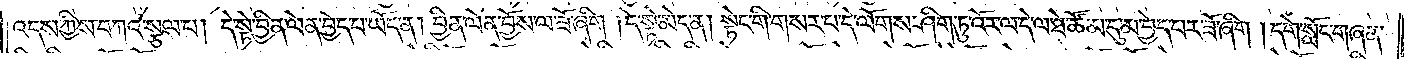འདས་ཀྱིས་བཀའ་སྩལ་པ། དེ་སྟེ་བྱིན་ལེན་བྱེད་པ་ཡོད་ན། བྱིན་ལེན་བྱོས་ལ་ཟོ་ཞིག །དེ་སྟེ་མེད་ན། སྟེང་གི་གསར་པ་དེ་ལོགས་ཤིག་ཏུ་འོར་ལ་དེ་ལ་ཐེ་ཚོམ་དུ་མ་བྱེད་པར་ཟོ་ཞིག། དགེ་སློང་གཞན་
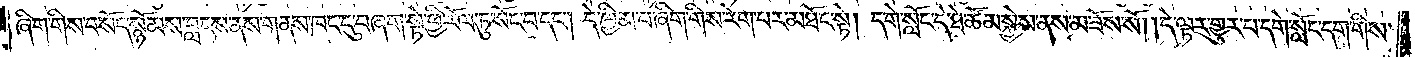ཞིག་གིས་བསོད་སྙོམས་བླངས་ནས་གནས་ཁང་དུ་བཞག་སྟེ་ཕྱི་རོལ་ཏུ་སོང་བ་དང༌། དེ་ཁྱིམ་པ་ཞིག་གིས་རེག་པར་མཐོང་སྟེ། དགེ་སློང་དེ་ཐེ་ཚོམ་སྐྱེས་ནས་མ་ཟོས་སོ། །དེ་ལྟར་གྱུར་པ་དགེ་སློང་དག་གིས་
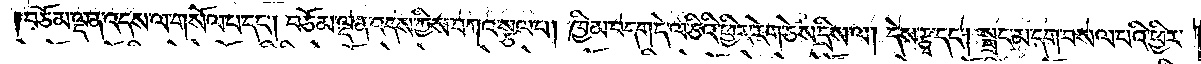བཅོམ་ལྡན་འདས་ལ་གསོལ་པ་དང༌། བཅོམ་ལྡན་འདས་ཀྱིས་བཀའ་སྩལ་པ། ཁྱིམ་བདག་དེ་ལ་ཅིའི་ཕྱིར་རེག་ཅེས་དྲིས་ལ། དེས་རྩྭ་དང༌། སྦྲང་མ་དག་བསལ་པའི་ཕྱིར་
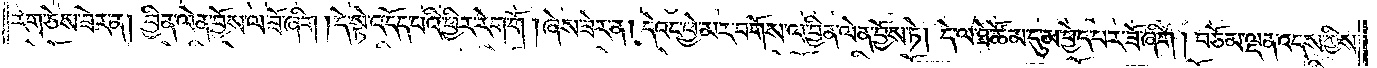རེག་ཅེས་ཟེར་ན། བྱིན་ལེན་བྱོས་ལ་ཟོ་ཞིག །དེ་སྟེ་འདོད་པའི་ཕྱིར་རེག་གོ །ཞེས་ཟེར་ན། དེའང་ཕྱེ་མར་བགོས་ལ་བྱིན་ལེན་བྱོས་ཏེ། དེ་ལ་ཐེ་ཚོམ་དུ་མ་བྱེད་པ་ར་ཟོ་ཞིག །བཅོམ་ལྡན་འདས་ཀྱིས་
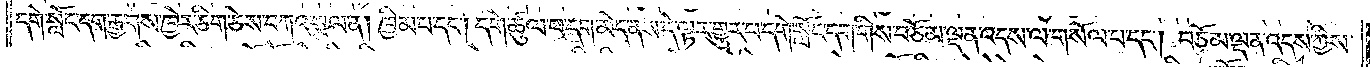དགེ་སློང་དག་རྒྱགས་ཁྱེར་ཅིག་ཅེས་བཀའ་སྩལ་ན། ཁྱིམ་པ་དང༌། དགེ་ཚུལ་ཕ་དག་མེད་ནས་དེ་ལྟར་གྱུར་པ་དགེ་སློང་དག་གིས་བཅོམ་ལྡན་འདས་ལ་གསོལ་པ་དང༌། བཅོམ་ལྡན་འདས་ཀྱིས་
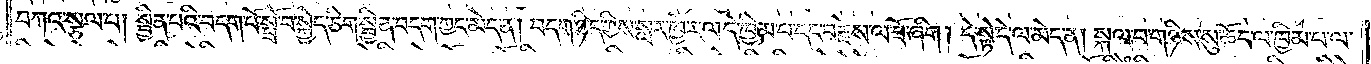བཀའ་སྩལ་པ། སྦྱིན་པའི་བདག་པོ་སྤྲོ་བ་སྐྱེད་ཅིག་སྦྱིན་བདག་ཀྱང་མེད་ན། བདག་ཉིད་ཀྱིས་སླར་ཁྱེར་ལ་དེ་ཁྱིམ་པ་དང་བརྗེས་ལ་ཟོ་ཞིག །དེ་སྟེ་དེ་ལ་མེད་ན། སྐལ་པ་གཉིས་སུ་ཆོད་ལ་ཁྱིམ་པ་ལ་
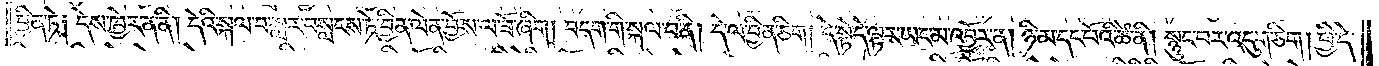བྱིན་ཏེ༑ དེས་ཁྱེར་ན་ནི། དེའི་སྐལ་བ་སླར་བསླངས་ཏེ་བྱིན་ལེན་བྱོས་ལ་ཟོ་ཞིག། བདག་གི་སྐལ་བ་ནི། དེ་ལ་བྱིན་ཅིག། དེ་སྟེ་དེ་ལྟར་ཡང་མ་འབྱོར་ན། ཉི་མ་དང་པོའི་ཚེ་ནི། སྙུང་བར་འདུག་ཅིག །ཕྱི་དེ་
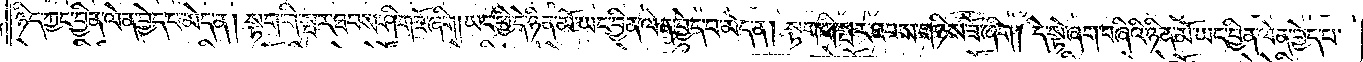ཉིད་ཀྱང་བྱིན་ལེན་བྱེད་པ་མེད་ན། སྟག་གི་སྦར་ཐབས་ཤིག་ཟོ་ཞིག །ཡང་ཕྱི་དེ་ཉིན་མོ་ཡང་བྱིན་ལེན་བྱེད་པ་མེད་ན། སྟག་གི་སྤར་ཐབས་གཉིས་ཟོ་ཞིག། དེ་སྟེ་ཞག་བཞིའི་ཉིན་མོ་ཡང་བྱིན་ལེན་བྱེད་པ་
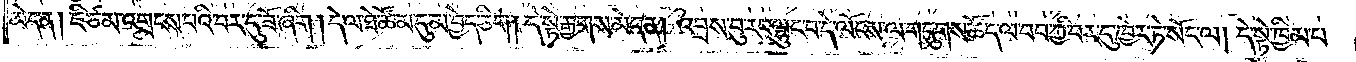མེད་ན། ཇི་ཙམ་འགྲངས་པའི་བར་དུ་ཟོ་ཞིག །དེ་ལ་ཐེ་ཚོམ་དུ་མ་བྱེད་ཅིག །དེ་སྟེ་རྒྱགས་མེད་ན། འབྲས་བུ་རང་ལྷུང་བ་དེ་ལ་ལོངས་ལ་གདུགས་ཚོད་ལ་བབ་ཀྱི་བར་དུ་ཁྱེར་ཏེ་སོང་ལ། དེ་སྟེ་ཁྱིམ་པ་
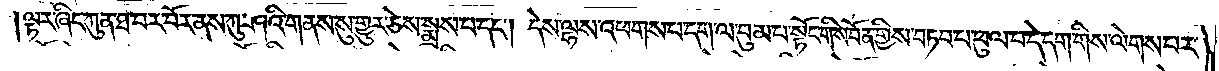ལྟར་ཞིང་ཀུན་ཐ་བར་བོར་ནས་ཀུ་ཤའི་གནས་སུ་གྱུར་ཅེས་སྨྲས་པ་དང༌། དེས་ལྷས་འཕགས་པ་དག་ལ་བུམ་པ་སྟོང་གི་ས་བོན་གྱིས་བཏབ་པ་ཕུལ་བ་དེ་དག་གིས་ལེགས་པར་
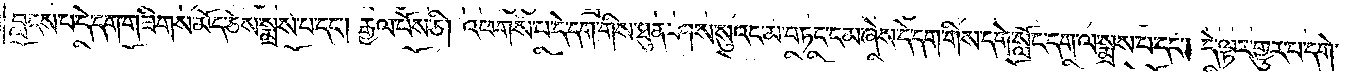བླངས་པ་དེ་དག་གཟིགས་མོད་ཅེས་སྨྲས་པ་དང༌། རྒྱལ་པོས་ཅི། འཕགས་པ་དེ་དག་གིས་ཐུན་ཤས་སུའང་མ་བཏང་ངམ་ཞེས་དེ་དག་གིས་དགེ་སློང་དག་ལ་སྨྲས་པ་དང༌། དེ་ལྟར་གྱུར་པ་དགེ་
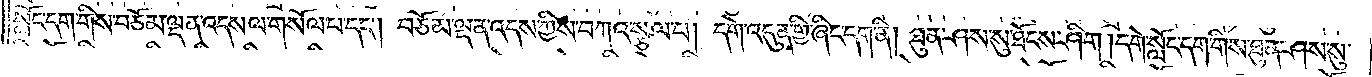སློང་དག་གིས་བཅོམ་ལྡན་འདས་ལ་གསོལ་པ་དང༌། བཅོམ་ལྡན་འདས་ཀྱིས་བཀའ་སྩལ་པ། དགེ་འདུན་གྱི་ཞིང་དག་ནི། ཐུན་ཤས་སུ་ཐོངས་ཤིག །དགེ་སློང་དག་གིས་ཐུན་ཤས་སུ་
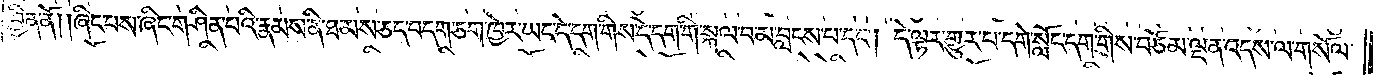བྱིན་ནོ། །ཞིང་པས་ཞིང་གཤིན་པའི་རྣམས་ནི་ཐམས་ཅད་བདག་ཅག་ཁྱེར་ཡང་དེ་དག་གིས་དེ་དག་གི་སྐལ་པ་མ་བླངས་པ་དང༌། དེ་ལྟར་གྱུར་པ་དགེ་སློང་དག་གིས་བཅོམ་ལྡན་འདས་ལ་གསོལ་
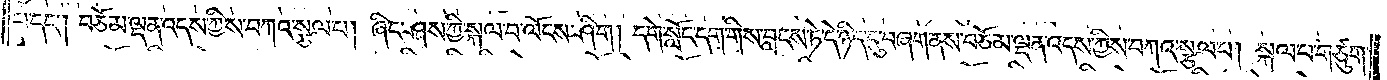པ་དང༌། བཅོམ་ལྡན་འདས་ཀྱིས་བཀའ་སྩལ་པ། ཞིང་ཤས་ཀྱི་སྐལ་པ་ལོངས་ཤིག། དགེ་སློང་དག་གིས་བླངས་ཏེ་དེ་ཉིད་དུ་བཞག་ནས་བཅོམ་ལྡན་འདས་ཀྱིས་བཀའ་སྩལ་པ། སྐལ་པ་གཙུག་
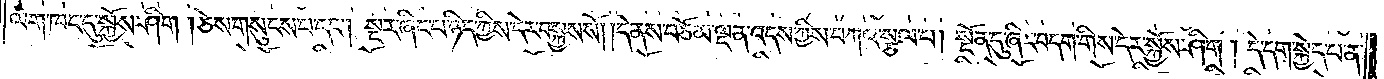ལག་ཁང་དུ་སྐྱོས་ཤིག །ཅེས་གསུངས་པ་དང༌། སྔར་ཞིང་པ་ཉིད་ཀྱིས་དེར་བསྐྱས་སོ། །དེ་ནས་བཅོམ་ལྡན་འདས་ཀྱིས་བཀའ་སྩལ་པ། སྔོན་དུ་ཞིང་བདག་གིས་དེར་སྐྱོས་ཤིག །དེ་དག་སྐྱེད་པ་ན་
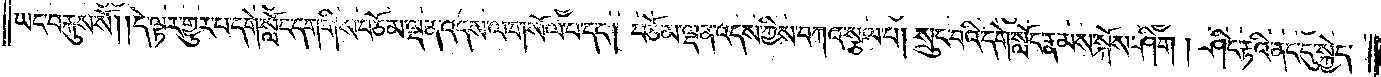ཡང་བརྐུས་སོ། །དེ་ལྟར་གྱུར་པ་དགེ་སློང་དག་གིས་བཅོམ་ལྡན་འདས་ལ་གསོལ་པ་དང༌། བཅོམ་ལྡན་འདས་ཀྱིས་བཀའ་སྩལ་པ། སྲུང་བའི་དགེ་སློང་རྣམས་སྐོས་ཤིག། ཤིང་རྟའི་ནང་དུ་སྐྱེད་
